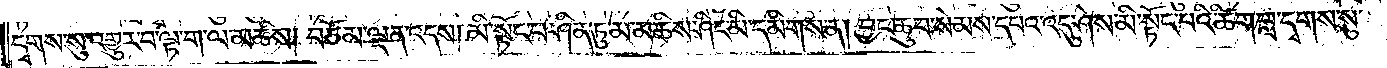དྭགས་སུ་འགྱུར་བ་ལྟ་ག་ལ་མཆིས། བཅོམ་ལྡན་འདས། མི་སྟོང་པ་ཤིན་ཏུ་མ་མཆིས་ཤིང་མི་དམིགས་ན། བྱང་ཆུབ་སེམས་དཔའ་འདུ་ཤེས་མི་སྟོང་པའི་ཚིག་བླ་དྭགས་སུ་
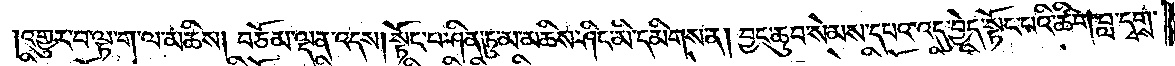འགྱུར་བ་ལྟ་ག་ལ་མཆིས། བཅོམ་ལྡན་འདས། སྟོང་པ་ཤིན་ཏུ་མ་མཆིས་ཤིང་མི་དམིགས་ན། བྱང་ཆུབ་སེམས་དཔའ་འདུ་བྱེད་སྟོང་པའི་ཚིག་བླ་དྭགས་
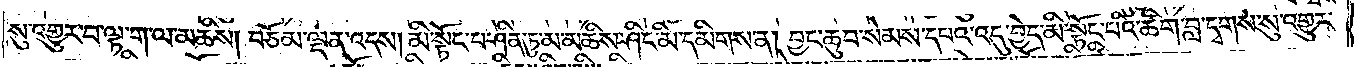སུ་འགྱུར་བ་ལྟ་ག་ལ་མཆིས། བཅོམ་ལྡན་འདས། མི་སྟོང་པ་ཤིན་ཏུ་མ་མཆིས་ཤིང་མི་དམིགས་ན། བྱང་ཆུབ་སེམས་དཔའ་འདུ་བྱེད་མི་སྟོང་པའི་ཚིག་བླ་དྭགས་སུ་འགྱུར་
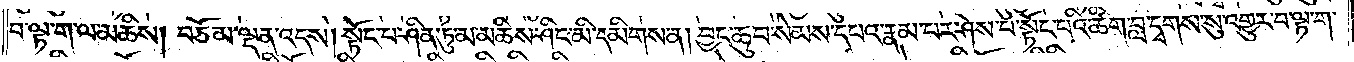བ་ལྟ་ག་ལ་མཆིས། བཅོམ་ལྡན་འདས། སྟོང་པ་ཤིན་ཏུ་མ་མཆིས་ཤིང་མི་དམིགས་ན། བྱང་ཆུབ་སེམས་དཔའ་རྣམ་པར་ཤེས་པ་སྟོང་པའི་ཚིག་བླ་དྭགས་སུ་འགྱུར་བ་ལྟ་ག་
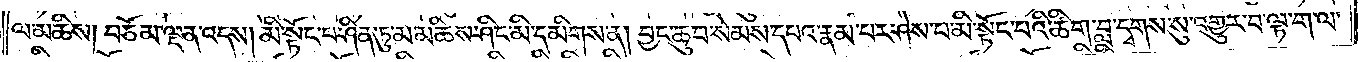ལ་མཆིས། བཅོམ་ལྡན་འདས། མི་སྟོང་པ་ཤིན་ཏུ་མ་མཆིས་ཤིང་མི་དམིགས་ན། བྱང་ཆུབ་སེམས་དཔའ་རྣམ་པར་ཤེས་པ་མི་སྟོང་པའི་ཚིག་བླ་དྭགས་སུ་འགྱུར་བ་ལྟ་ག་ལ་
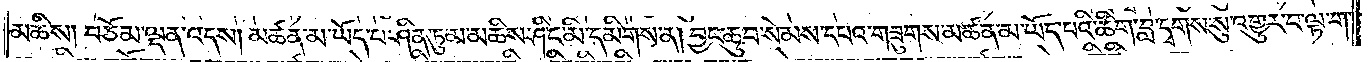མཆིས། བཅོམ་ལྡན་འདས། མཚན་མ་ཡོད་པ་ཤིན་ཏུ་མ་མཆིས་ཤིང་མི་དམིགས་ན། བྱང་ཆུབ་སེམས་དཔའ་གཟུགས་མཚན་མ་ཡོད་པའི་ཚིག་བླ་དྭགས་སུ་འགྱུར་བ་ལྟ་ག་
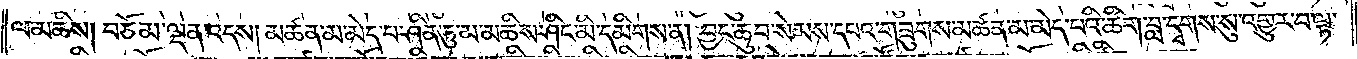ལ་མཆིས། བཅོམ་ལྡན་འདས། མཚན་མ་མེད་པ་ཤིན་ཏུ་མ་མཆིས་ཤིང་མི་དམིགས་ན། བྱང་ཆུབ་སེམས་དཔའ་གཟུགས་མཚན་མ་མེད་པའི་ཚིག་བླ་དྭགས་སུ་འགྱུར་བ་ལྟ་
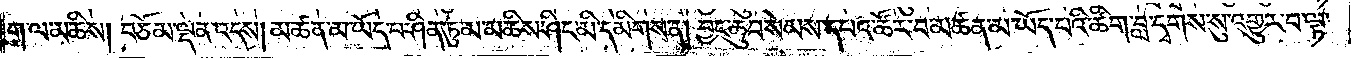ག་ལ་མཆིས༑ བཅོམ་ལྡན་འདས། མཚན་མ་ཡོད་པ་ཤིན་ཏུ་མ་མཆིས་ཤིང་མི་དམིགས་ན། བྱང་ཆུབ་སེམས་དཔའ་ཚོར་བ་མཚན་མ་ཡོད་པའི་ཚིག་བླ་དྭགས་སུ་འགྱུར་བ་ལྟ་
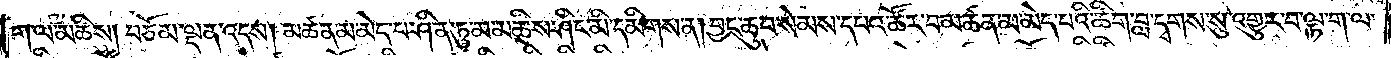ག་ལ་མཆིས། བཅོམ་ལྡན་འདས། མཚན་མ་མེད་པ་ཤིན་ཏུ་མ་མཆིས་ཤིང་མི་དམིགས་ན། བྱང་ཆུབ་སེམས་དཔའ་ཚོར་བ་མཚན་མ་མེད་པའི་ཚིག་བླ་དྭགས་སུ་འགྱུར་བ་ལྟ་ག་ལ་
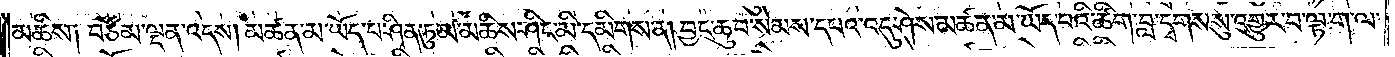མཆིས༑ བཅོམ་ལྡན་འདས། མཚན་མ་ཡོད་པ་ཤིན་ཏུ་མ་མཆིས་ཤིང་མི་དམིགས་ན། བྱང་ཆུབ་སེམས་དཔའ་འདུ་ཤེས་མཚན་མ་ཡོད་པའི་ཚིག་བླ་དྭགས་སུ་འགྱུར་བ་ལྟ་ག་ལ་
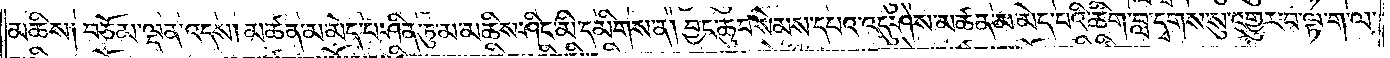མཆིས༑ བཅོམ་ལྡན་འདས། མཚན་མ་ཡོད་ཤིན་ཏུ་མ་མཆིས་ཤིང་མི་དམིགས་ན། བྱང་ཆུབ་སེམས་དཔའ་འདུ་ཤེས་མཚན་མ་མེད་པའི་ཚིག་བླ་དྭགས་སུ་འགྱུར་བ་ལྟ་ག་ལ་
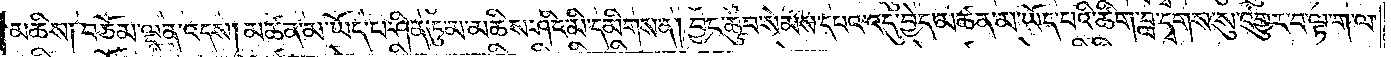མཆིས༑ བཅོམ་ལྡན་འདས། མཚན་མ་ཡོད་པ་ཤིན་ཏུ་མ་མཆིས་ཤིང་མི་དམིགས་ན། བྱང་ཆུབ་སེམས་དཔའ་འདུ་བྱེད་མཚན་མ་ཡོད་པའི་ཚིག་བླ་དྭགས་སུ་འགྱུར་བ་ལྟ་ག་ལ་
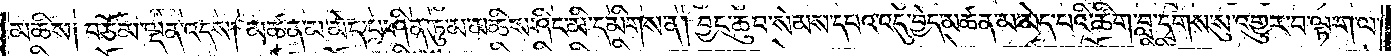མཆིས༑ བཅོམ་ལྡན་འདས། མཚན་མ་ཡོད་པ་ཤིན་ཏུ་མ་མཆིས་ཤིང་མི་དམིགས་ན། བྱང་ཆུབ་སེམས་དཔའ་འདུ་བྱེད་མཚན་མ་མེད་པའི་ཚིག་བླ་དྭགས་སུ་འགྱུར་བ་ལྟ་ག་ལ་
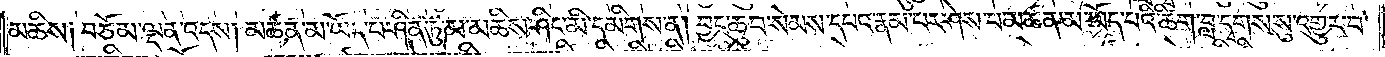མཆིས༑ བཅོམ་ལྡན་འདས། མཚན་མ་ཡོད་པ་ཤིན་ཏུ་མ་མཆིས་ཤིང་མི་དམིགས་ན། བྱང་ཆུབ་སེམས་དཔའ་རྣམ་པར་ཤེས་པ་མཚན་མ་ཡོད་པའི་ཚིག་བླ་དྭགས་སུ་འགྱུར་བ་
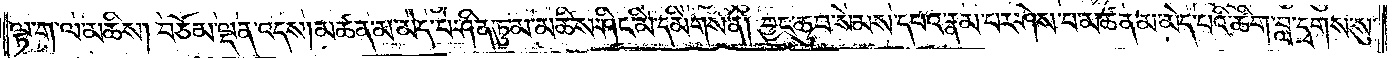ལྟ་ག་ལ་མཆིས། བཅོམ་ལྡན་འདས། མཚན་མ་མེད་པ་ཤིན་ཏུ་མ་མཆིས་ཤིང་མི་དམིགས་ན། བྱང་ཆུབ་སེམས་དཔའ་རྣམ་པར་ཤེས་པ་མཚན་མ་མེད་པའི་ཚིག་བླ་དྭགས་སུ་
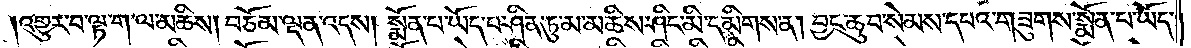འགྱུར་བ་ལྟ་ག་ལ་མཆིས། བཅོམ་ལྡན་འདས། སྨོན་པ་ཡོད་པ་ཤིན་ཏུ་མ་མཆིས་ཤིང་མི་དམིགས་ན། བྱང་ཆུབ་སེམས་དཔའ་གཟུགས་སྨོན་པ་ཡོད་
